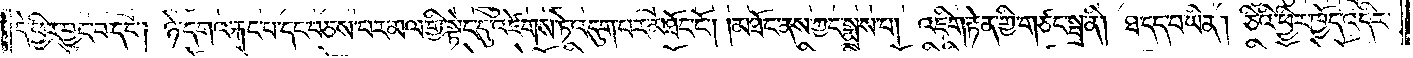དེ་ཕྱིར་བྱུང་བ་དང༌། ཉེ་དགའ་རྐང་པ་དང་བཅས་པར་མལ་གྱི་སྟེང་དུ་འཛེགས་ཏེ་འདུག་པར་མཐོང་ངོ༌། །མཐོང་ནས་ཀྱང་སྨྲས་པ། འཇིག་རྟེན་གྱི་གཙང་སྦྲ་ནི། ཐ་དད་པ་ཡིན། ཅིའི་ཕྱིར་ཁྱོད་འདིར་
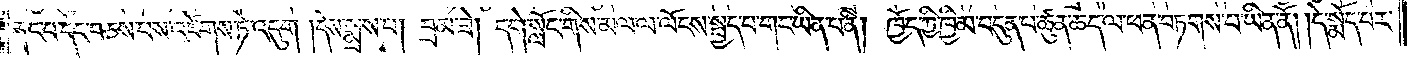རྐང་པ་དང་བཅས་པས་འཛེགས་ཏེ་འདུག །དེས་སྨྲས་པ། བྲམ་ཟེ། དགེ་སློང་གིས་མལ་ལ་ལོངས་སྤྱོད་པ་གང་ཡིན་པ་ནི། ཁྱོད་ཀྱི་ཁྱིམ་བདུན་བ་ཚུན་ཆད་ལ་ཕན་བཏགས་པ་ཡིན་ནོ། །དེ་སྨོད་པར་
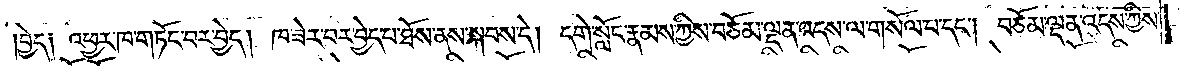བྱེད༑ འཕྱར་ཁ་གཏོང་བར་བྱེད། ཁ་ཟེར་བར་བྱེད་པ་ཐོས་ནས་སྐབས་དེ། དགེ་སློང་རྣམས་ཀྱིས་བཅོམ་ལྡན་འདས་ལ་གསོལ་བ་དང༌། བཅོམ་ལྡན་འདས་ཀྱིས་
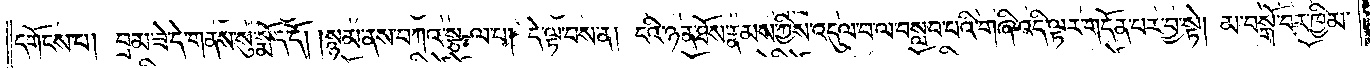དགོངས་པ། བྲམ་ཟེ་དེ་གནས་སུ་སྨོད་དོ། །སྙམ་ནས་བཀའ་སྩལ་པ། དེ་ལྟ་བས་ན། ངའི་ཉན་ཐོས་རྣམས་ཀྱིས་འདུལ་བ་ལ་བསླབ་པའི་གཞི་འདི་ལྟར་གདོན་པར་བྱ་སྟེ། མ་བསྒོ་བར་ཁྱིམ་
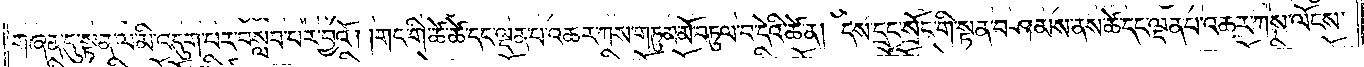གཞན་དུ་སྟན་ལ་མི་འདུག་པར་བསླབ་པར་བྱའོ། །གང་གི་ཚེ་ཚེ་དང་ལྡན་པ་འཆར་ཀས་གཏུམ་མོ་བཏུལ་བ་དེའི་ཚེ་ན། དེས་དྲང་སྲོང་གི་སྟན་བཤམས་ནས་ཚེ་དང་ལྡན་པ་འཆར་ཀས་ལོངས་
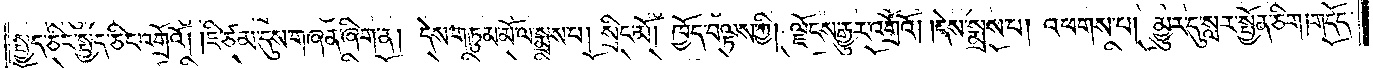སྤྱོད་ཅིང་སྤྱད་ཅིང་འགྲོའོ། །ཇི་ཙམ་དུས་གཞན་ཞིག་ན། དེས་གཏུམ་མོ་ལ་སྨྲས་པ། སྲིང་མོ། ཁྱོད་བལྟས་ཀྱི། ལྗོངས་རྒྱུར་འགྲོའོ། །དེས་སྨྲས་པ། འཕགས་པ། མྱུར་དུ་སླར་སྤྱོན་ཅིག །གདོད་
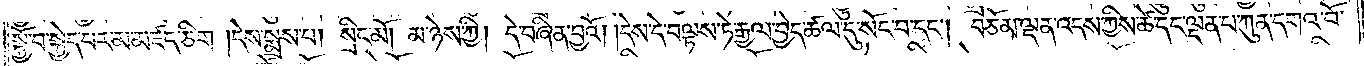སྐྱོ་བ་སྐྱེད་པར་མ་མཛད་ཅིག །དེས་སྨྲས་པ། སྲིང་མོ། མ་ཉེས་ཀྱི། དེ་བཞིན་བྱའོ། །དེས་དེ་བལྟས་ཏེ་རྒྱལ་བྱེད་ཚལ་དུ་སོང་བ་དང༌། བཅོམ་ལྡན་འདས་ཀྱིས་ཚེ་དང་ལྡན་པ་ཀུན་དགའ་བོ་
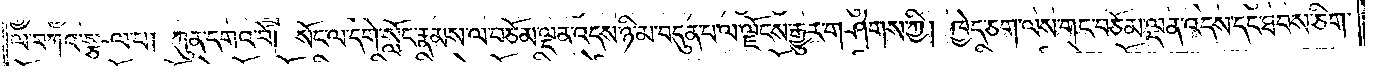ལ་བཀའ་སྩལ་པ། ཀུན་དགའ་བོ། སོང་ལ་དགེ་སློང་རྣམས་ལ་བཅོམ་ལྡན་འདས་ཉི་མ་བདུན་པ་ལ་ལྗོངས་རྒྱུར་གཤེགས་ཀྱི། ཁྱེད་ཅག་ལས་གང་བཅོམ་ལྡན་འདས་དང་ཐབས་ཅིག་
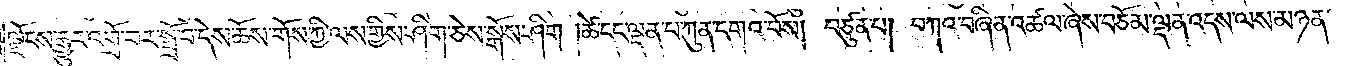ལྗོངས་རྒྱུར་འགྲོ་བར་སྤྲོ་བ་དེས་ཆོས་གོས་ཀྱི་ལས་གྱིས་ཤིག་ཅེས་སྒོས་ཤིག །ཚེ་དང་ལྡན་པ་ཀུན་དགའ་བོས། བཙུན་པ། བཀའ་བཞིན་འཚལ་ཞེས་བཅོམ་ལྡན་འདས་ལས་མཉན་
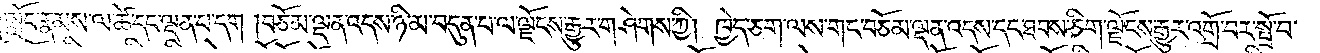ནས་དགེ་སློང་རྣམས་ལ་ཚེ་དང་ལྡན་པ་དག །བཅོམ་ལྡན་འདས་ཉི་མ་བདུན་པ་ལ་ལྗོངས་རྒྱུར་གཤེགས་ཀྱི། ཁྱེད་ཅག་ལས་གང་བཅོམ་ལྡན་འདས་དང་ཐབས་ཅིག་ལྗོངས་རྒྱུར་འགྲོ་བར་སྤྲོ་བ་
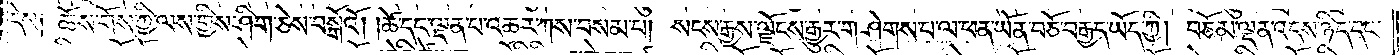དེས༑ ཆོས་གོས་ཀྱི་ལས་གྱིས་ཤིག་ཅེས་བསྒོའོ། །ཚེ་དང་ལྡན་པ་འཆར་ཀས་བསམ་པ། སངས་རྒྱས་ལྗོངས་རྒྱུར་གཤེགས་པ་ལ་ཕན་ཡོན་བཅོ་བརྒྱད་ཡོད་ཀྱི། བཅོམ་ལྡན་འདས་ཉིད་དང་
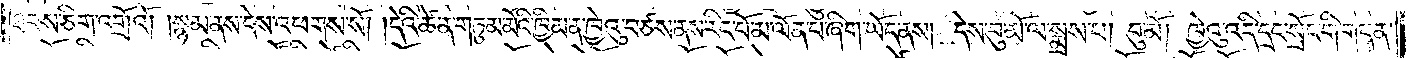ཐབས་ཅིག་འགྲོའོ། །སྙམ་ནས་དེས་འཕགས་སོ། །དེའི་ཚེ་ན་གཏུམ་མོའི་ཁྱིམ་ན་ཁྱེའུ་བཙས་ནས་རིང་པོ་མ་ལོན་པ་ཞིག་ཡོད་ནས། དེས་བུ་མོ་ལ་སྨྲས་པ། བུ་མོ། ཁྱེའུ་འདི་དྲང་སྲོང་གི་གདན་
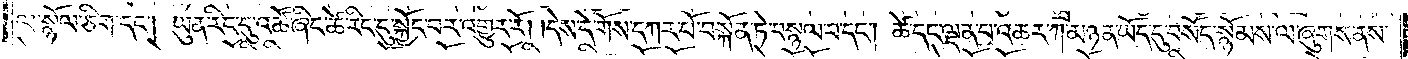ལ་སྙོལ་ཅིག་དང༌། ཡུན་རིང་དུ་འཚོ་ཞིང་ཚེ་རིང་དུ་སྐྱོང་བར་འགྱུར་རོ། །དེས་དེ་གོས་དཀར་པོ་བསྐོན་ཏེ་བསྙལ་བ་དང༌། ཚེ་དང་ལྡན་པ་འཆར་ཀ་མཉན་ཡོད་དུ་བསོད་སྙོམས་ལ་ཞུགས་ནས་
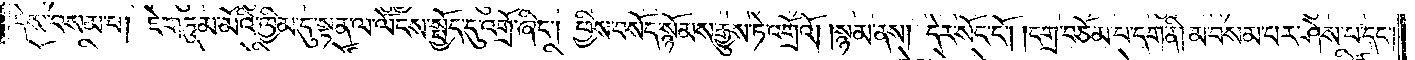དེས་བསམ་པ། ཇེ་གཏུམ་མོའི་ཁྱིམ་དུ་སྟན་ལ་ལོངས་སྤྱོད་དུ་འགྲོ་ཞིང༌། ཕྱིས་བསོད་སྙོམས་རྒྱུས་ཏེ་འགྲོའོ། །སྙམ་ནས། དེར་སོང་ངོ༌། །དགྲ་བཅོམ་པ་དག་ནི། མ་བསམ་པར་ཤེས་པ་དང༌།
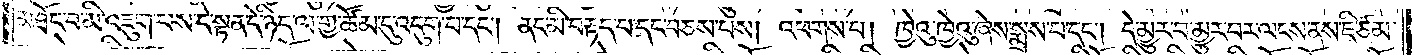མཐོང་བ་མི་འཇུག་པས་དེ་སྟན་དེ་ཉིད་ལ་གྱ་ཚོམ་དུ་འདུག་པ་དང༌། ནང་མི་བརྟད་པ་དང་བཅས་པས། འཕགས་པ། ཁྱེའུ་ཁྱེའུ་ཞེས་སྨྲས་པ་དང༌། དེ་མྱུར་བ་མྱུར་བར་ལངས་ནས་ཇི་ཙམ་
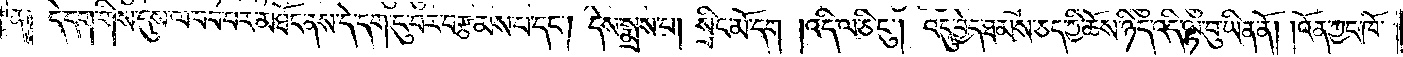ན༑ དེ་དག་གིས་དུས་ལ་བབ་པར་མཐོང་ནས་དེ་དག་ངུ་བར་བརྩམས་པ་དང༌། དེས་སྨྲས་པ། སྲིང་མོ་དག །འདི་ལ་ཅི་ངུ༌། འདུ་བྱེད་ཐམས་ཅད་ཀྱི་ཆོས་ཉིད་འདི་ལྟ་བུ་ཡིན་ནོ། །འོན་ཀྱང་ཁོ་
